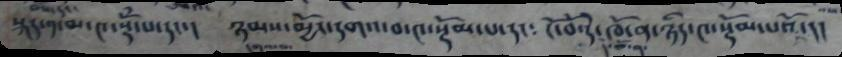སྐད་༡་མ་༤་སྡོཾ་པ་དང་།  ཉམས་མྱོང་དགའ་བ་༤་སྡོམ་པ་དང༴	  ངོ་བོ་དེ་ཁོ་ན་ཉིད་༤་སྡོམ་པའོ་།།
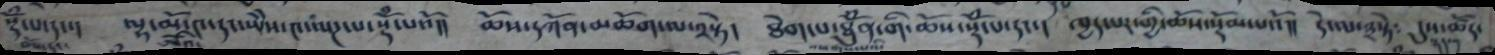སྡོཾ་པ་དང་།  ལྷ་མོ་༤་དང་ཡེེས་༤་ལཌ་པ་སྡོཾ་པའོ།།  ཆོས་དཀོན་མཆོག་ལ་༢སྟེ།  ཐེག་པ་ཐོུཾན་གི་ཆོས་སྡོཾ་པ་དང་།  ཁྱད་པར་གྱི་ཆོས་སྡོམ་པའོ།། དེ་ལ་༣སྟེ༴  དུས་ཚོད་
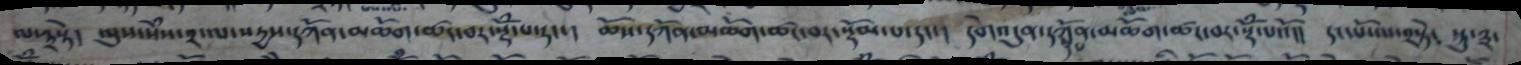ལ་༣སྟེ།  ལུས་སེཾས་༢་ལ་སདྱས་དཀོན་མཆོག་ཚང་བར་སྡོཾ་པ་དང་།  ཆོས་དཀོན་མཆོག་ཚང་བར་སྡོམ་པ་དང་།  དགེའདུན་དཀོན་མཆོག་ཚང་བར་སྡོཾ་པའོ།།  དང་པོ་ལ་༢སྟེ༴	  སྐུ་༣་
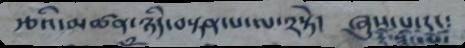རྩའི་མཚན་ཉིད་བསྟན་པ་ལ་༢སྟེ།  ཞུས་པ་དང༴
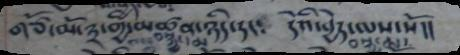གཙོ་མོ་༣་གྱི་མཚན་ཉིད་དང༴  དེའི་བྱེད་ལས་སོ།།
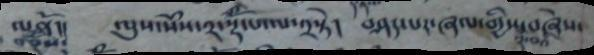ལནོ།།   ལུས་སེཾས་༢་སྡོཾ་པ་ལ་༢་སྟེ།   བཤད་པར་ཞལ་གྱིས་བཞེས་
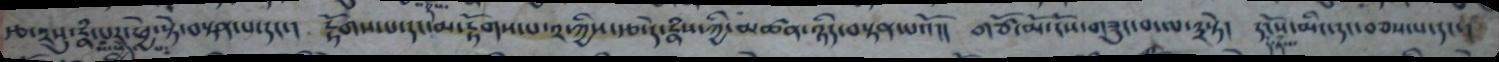རྩ་༢སུ་རྣཾ་པར་ཕྱེ་སྟེ་བསྟན་པ་དང་།  རྟོགས་པ་དང་མ་རྟོགས་པ་༢་ཀྱིས་རྩ་དེ་རྣཾས་ཀྱི་མཚན་ཉིད་བསྟན་པའོ།།  གཙོ་མོ་ངོས་གཟུང་བ་ལ་༣སྟེ། དེ་རྣཾས་དངོས་མིང་དང་བཅས་པ་དང་།
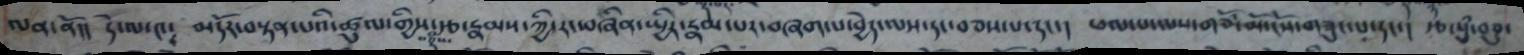ལན་ནོ།། དེ་ལ་༤༴ མདོར་བསྟན་པའི་ཚུལ་གྱིས་རྩ་རྣམས་ཀྱི་རང་བཞིན་སྤྱིར་རྣམ་པར་བཞག་པ་བྱེད་ལས་དང་བཅས་པ་དང་། ཕལ་པ་ལས་གཙོ་མོ་ངོས་གཟུང་པ་དང་། རྩ་སུཾ་བཅུ་
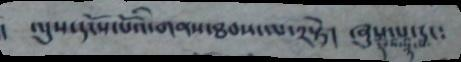།   ལུས་དངོས་པོའི་གནས་ཐབས་ལ་༢སྟེ།  ཞུས་པ་དང༴
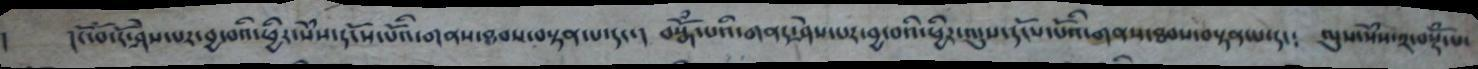། །ངོ་བོ་ངོ་ཤེས་པར་བྱ་བའི་ཕྱིར་སེཾས་དངོས་པོའི་གནས་ཐབས་བསྟན་པ་དང་། བསྒོཾ་པའི་གནད་ཤེས་པར་བྱ་བའི་ཕྱིར་ལུས་དངོས་པོའི་གནས་ཐབས་བསྟན་པ་དང༴ ལུས་སེཾས་༢་བསྡོཾ་པ་
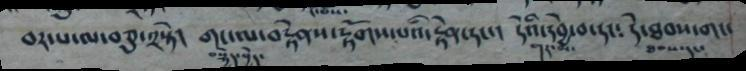བར་པ་ལ་བཅུ་༢སྟེ།  གང་ལ་བརྟེནས་རྟོགས་པའི་རྟེན་དང་།  དེའི་དབྱེ་བ་དང༴	  དེ་ཐབས་གང་
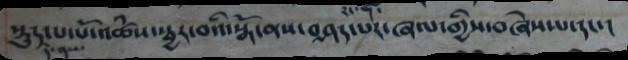སྡུད་པ་པོ་འཚཾས་སྦྱར་བའི་སྒོ་ནས་བཤད་པར་ཞལ་གྱིས་བཞེས་པ་དང་།
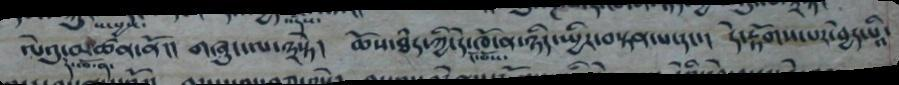ལེའུ་མཚན་ནོ།།  གཞུང་ལ་༣སྟེ།  ཆོས་ཐཾད་ཀྱི་དེ་ཁོ་ན་ཉིད་སྤྱིར་བསྟན་པ་དང་།  དེ་རྟོགས་པར་བྱེད་པའི་
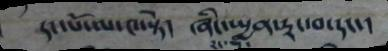དང་པོ་ལ་༤་སྟེ། ཞིང་སྤྱན་དྲང་བ་དང་།
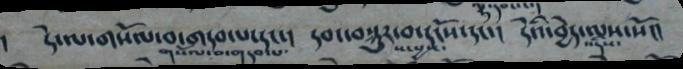།  དེ་ལ་གསོལ་བ་གདབ་པ་དང་།  དབང་བསྐུར་བ་དངོས་དང་།   དེའི་བྱེད་ལས་སོ།།
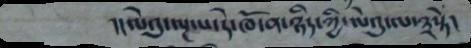།།ལེའུ་ལྔ་པ་དེ་ཁོ་ན་ཉིད་ཀྱི་ལེའུ་ལ་༣སྟེ།
